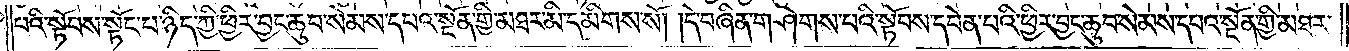པའི་སྟོབས་སྟོང་པ་ཉིད་ཀྱི་ཕྱིར་བྱང་ཆུབ་སེམས་དཔའ་སྔོན་གྱི་མཐར་མི་དམིགས་སོ། །དེ་བཞིན་གཤེགས་པའི་སྟོབས་དབེན་པའི་ཕྱིར་བྱང་ཆུབ་སེམས་དཔའ་སྔོན་གྱི་མཐར་
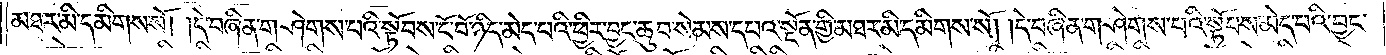མི་དམིགས་སོ། །དེ་བཞིན་གཤེགས་པའི་སྟོབས་ངོ་བོ་ཉིད་མེད་པའི་ཕྱིར་བྱང་ཆུབ་སེམས་དཔའ་སྔོན་གྱི་མཐར་མི་དམིགས་སོ། །དེ་བཞིན་གཤེགས་པའི་སྟོབས་མེད་པའི་ཕྱིར་བྱང་
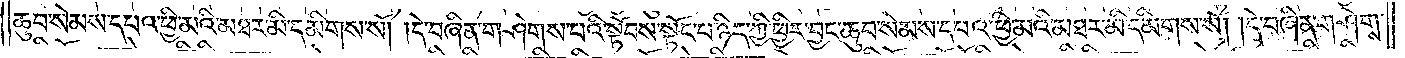ཆུབ་སེམས་དཔའ་ཕྱི་མའི་མཐར་མི་དམིགས་སོ། །དེ་བཞིན་གཤེགས་པའི་སྟོབས་སྟོང་པ་ཉིད་ཀྱི་ཕྱིར་བྱང་ཆུབ་སེམས་དཔའ་ཕྱི་མའི་མཐར་མི་དམིགས་སོ། །དེ་བཞིན་གཤེགས་
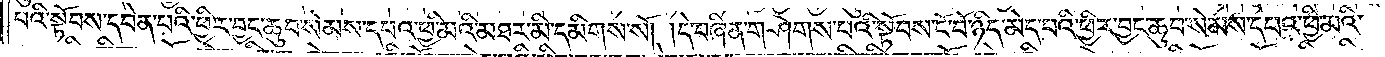པའི་སྟོབས་དབེན་པའི་ཕྱིར་བྱང་ཆུབ་སེམས་དཔའ་ཕྱི་མའི་མཐར་མི་དམིགས་སོ། །དེ་བཞིན་གཤེགས་པའི་སྟོབས་ངོ་བོ་ཉིད་མེད་པའི་ཕྱིར་བྱང་ཆུབ་སེམས་དཔའ་ཕྱི་མའི་
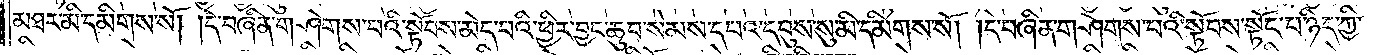མཐར་མི་དམིགས་སོ། །དེ་བཞིན་གཤེགས་པའི་སྟོབས་མེད་པའི་ཕྱིར་བྱང་ཆུབ་སེམས་དཔའ་དབུས་སུ་མི་དམིགས་སོ། །དེ་བཞིན་གཤེགས་པའི་སྟོབས་སྟོང་པ་ཉིད་ཀྱི་
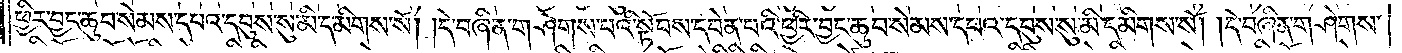ཕྱིར་བྱང་ཆུབ་སེམས་དཔའ་དབུས་སུ་མི་དམིགས་སོ། །དེ་བཞིན་གཤེགས་པའི་སྟོབས་དབེན་པའི་ཕྱིར་བྱང་ཆུབ་སེམས་དཔའ་དབུས་སུ་མི་དམིགས་སོ། །དེ་བཞིན་གཤེགས་
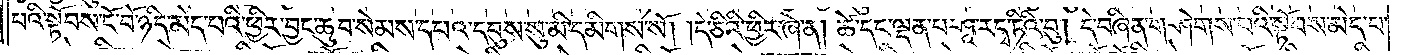པའི་སྟོབས་ངོ་བོ་ཉིད་མེད་པའི་ཕྱིར་བྱང་ཆུབ་སེམས་དཔའ་དབུས་སུ་མི་དམིགས་སོ། །དེ་ཅིའི་ཕྱིར་ཞེ་ན། ཚེ་དང་ལྡན་པ་ཤཱ་རདྭ་ཏིའི་བུ། དེ་བཞིན་གཤེགས་པའི་སྟོབས་མེད་པ་
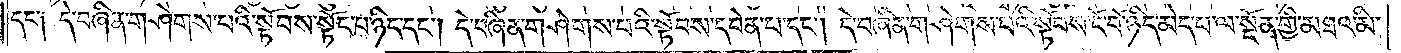དང་༑ དེ་བཞིན་གཤེགས་པའི་སྟོབས་སྟོང་པ་ཉིད་དང༌། དེ་བཞིན་གཤེགས་པའི་སྟོབས་དབེན་པ་དང༌། དེ་བཞིན་གཤེགས་པའི་སྟོབས་ངོ་བོ་ཉིད་མེད་པ་ལ་སྔོན་གྱི་མཐའ་མི་
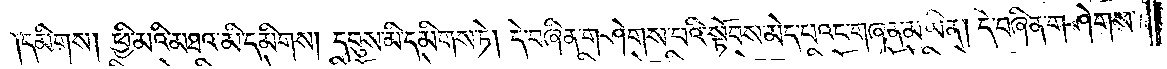དམིགས། ཕྱི་མའི་མཐའ་མི་དམིགས། དབུས་མི་དམིགས་ཏེ། དེ་བཞིན་གཤེགས་པའི་སྟོབས་མེད་པའང་གཞན་མ་ཡིན། དེ་བཞིན་གཤེགས་
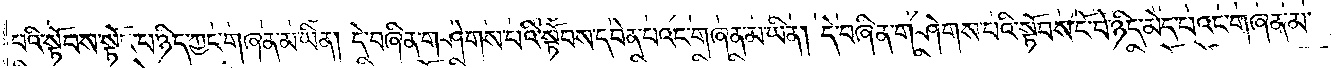པའི་སྟོབས་སྟོང་པ་ཉིད་ཀྱང་གཞན་མ་ཡིན། དེ་བཞིན་གཤེགས་པའི་སྟོབས་དབེན་པའང་གཞན་མ་ཡིན། དེ་བཞིན་གཤེགས་པའི་སྟོབས་ངོ་བོ་ཉིད་མེད་པའང་གཞན་མ་
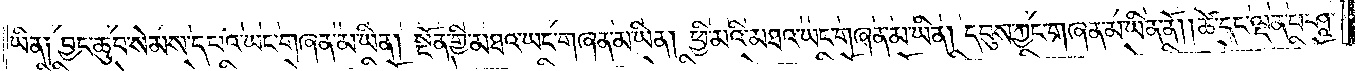ཡིན༑ བྱང་ཆུབ་སེམས་དཔའ་ཡང་གཞན་མ་ཡིན། སྔོན་གྱི་མཐའ་ཡང་གཞན་མ་ཡིན། ཕྱི་མའི་མཐའ་ཡང་གཞན་མ་ཡིན། དབུས་ཀྱང་གཞན་མ་ཡིན་ནོ། །ཚེ་དང་ལྡན་པ་ཤཱ་
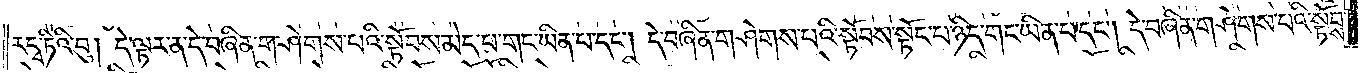རདྭ་ཏིའི་བུ། དེ་ལྟར་ན་དེ་བཞིན་གཤེགས་པའི་སྟོབས་མེད་པ་གང་ཡིན་པ་དང༌། དེ་བཞིན་གཤེགས་པའི་སྟོབས་སྟོང་པ་ཉིད་གང་ཡིན་པ་དང༌། དེ་བཞིན་གཤེགས་པའི་སྟོབས་
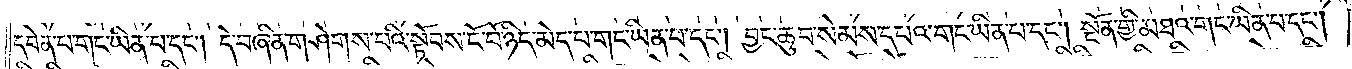དབེན་པ་གང་ཡིན་པ་དང༌། དེ་བཞིན་གཤེགས་པའི་སྟོབས་ངོ་བོ་ཉིད་མེད་པ་གང་ཡིན་པ་དང༌། བྱང་ཆུབ་སེམས་དཔའ་གང་ཡིན་པ་དང༌། སྔོན་གྱི་མཐའ་གང་ཡིན་པ་དང༌།
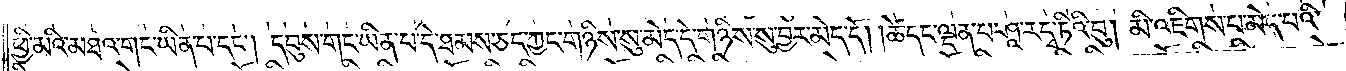ཕྱི་མའི་མཐའ་གང་ཡིན་པ་དང༌། དབུས་གང་ཡིན་པ་དེ་ཐམས་ཅད་ཀྱང་གཉིས་སུ་མེད་དེ་གཉིས་སུ་བྱར་མེད་དོ། །ཚེ་དང་ལྡན་པ་ཤཱ་རདྭ་ཏིའི་བུ། མི་འཇིགས་པ་མེད་པའི་
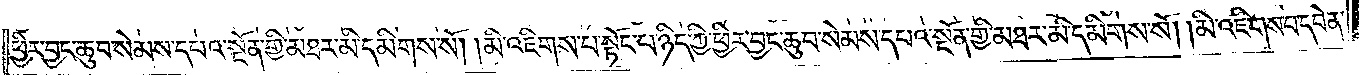ཕྱིར་བྱང་ཆུབ་སེམས་དཔའ་སྔོན་གྱི་མཐར་མི་དམིགས་སོ། །མི་འཇིགས་པ་སྟོང་པ་ཉིད་ཀྱི་ཕྱིར་བྱང་ཆུབ་སེམས་དཔའ་སྔོན་གྱི་མཐར་མི་དམིགས་སོ། །མི་འཇིགས་པ་དབེན་
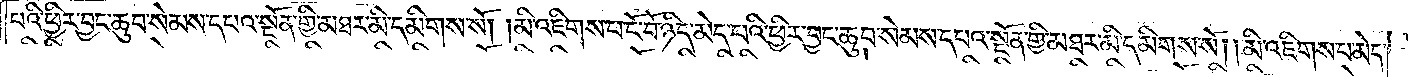པའི་ཕྱིར་བྱང་ཆུབ་སེམས་དཔའ་སྔོན་གྱི་མཐར་མི་དམིགས་སོ། །མི་འཇིགས་པ་ངོ་བོ་ཉིད་མེད་པའི་ཕྱིར་བྱང་ཆུབ་སེམས་དཔའ་སྔོན་གྱི་མཐར་མི་དམིགས་སོ། །མི་འཇིགས་པ་མེད་
